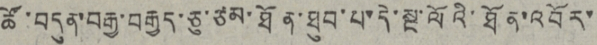ཚོ་བདུན་བརྒྱ་བརྒྱད་ཅུ་ཙམ་ཐོན་ཐུབ་པ་དེ་སྔ་ལོའི་ཐོན་འབོར་
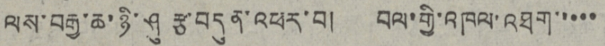ལས་བརྒྱ་ཆ་ཉི་ཤུ རྩ་བདུན་འཕར་བ། བལ་གྱི་འཁུལ་འཐག་་་་་
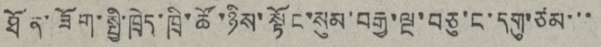ཐོན་ཟོག་སྤྱི་ཁྲེད་ཁྲི་ཚོ་ཉིས་སྟོང་སུམ་བརྒྱ་ལྔ་བཅུ་ང་དགུ་ཙམ་་་
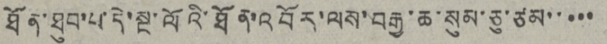ཐོན་ཐུབ་པ་དེ་སྔ་ལོའི་ཐོན་འབོར་ལས་བརྒྱ་ཆ་སུམ་ཅུ་ཙམ་་་་་
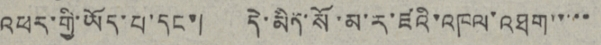འཕར་གྱི་ཡོད་པ་དང་། དེ་མིན་སོ་མ་ར་ཛའི་འཁལ་འཐག་་་་་
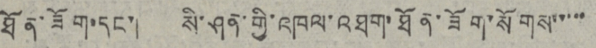ཐོན་ཟོག་དང་། སི་ཤན་གྱི་འཁལ་འཐག་ཐོན་ཟོག་སོགས་་་་་
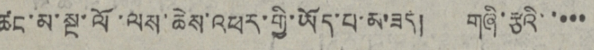ཚང་མ་སྔ་ལོ་ལས་ཆེས་འཕར་གྱི་ཡོད་པ་མ་ཟད། གཞི་རྩའི་་་་་
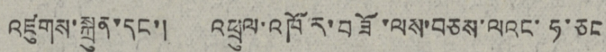འཛུགས་སྐྲུན་དང་།  འཕྲུལ་འཁོར་བཟོ་ལས་ལའང་ཧ་ཅང
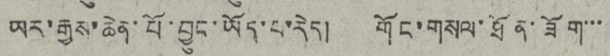ཡར་རྒྱས་ཆེན་པོ་བྱུང་ཡོད་པ་རེད།  གོང་གསལ་ཐོན་ཟོག་་་
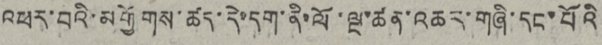འཕར་བའི་མགྱོགས་ཚད་དེ་དག་ནི་ལོ་ལྔ་ཚན་འཆར་གཞི་དང་པོའི
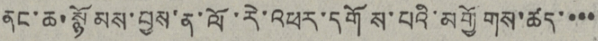ནང་ཆ་སྙོམས་བྱས་ན་ལོ་རེ་འཕར་དགོས་པའི་མགྱོགས་ཚད་་་་
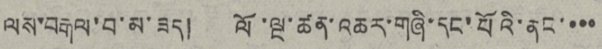ལས་བརྒལ་བ་མ་ཟད།  ལོ་ལྔ་ཚན་འཆར་གཞི་དང་པོའི་ནང་་་་
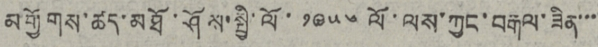མགྱོགས་ཚད་མཐོ་ཤོས་སྤྱི་ལོ་ ༡༩༥༦ ལོ་ལས་ཀྱང་བརྒལ་ཟིན་་་
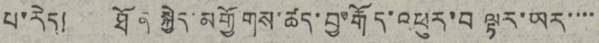པ་རེད།  ཐོན་སྐྱེད་མགྱོགས་ཚད་བྱ་རྒོད་འཕུར་བ་ལྟར་ཡར་་་་
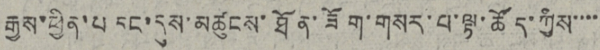རྒྱས་ཕྱིན་པ་དང་དུས་མཚུངས་ཐོན་ཟོག་གསར་པ་ལྟ་ཚོད་ཀྱིས་་་་
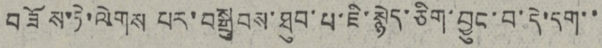བཟོས་ཏེ་ལེགས་པར་བསྒྲུབས་ཐུབ་པ་ཇི་སྙེད་ཅིག་བྱུང་བ་དེ་དག་་
